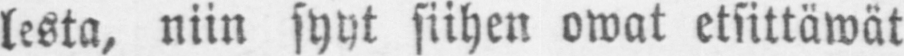lesta, niin syyt siihen owat etsittäwät
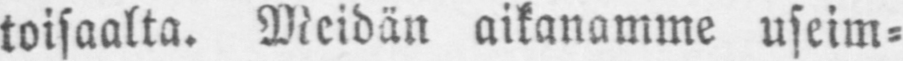toisaalta. Meidän aikanamme useim-
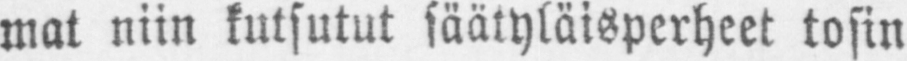mat niin kutsutut säätyläisperheet tosin
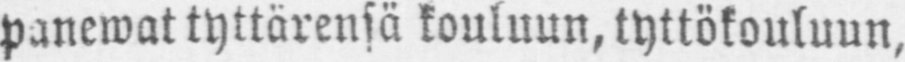panewat tyttärensä kouluun, tyttökouluun,
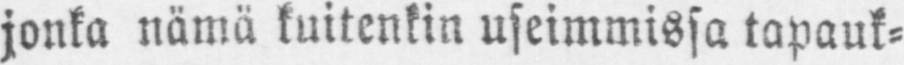jonka nämä kuitenkin useimmissa tapauk-
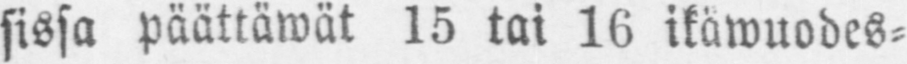sissa päättäwät 15 tai 16 ikäwuodes-
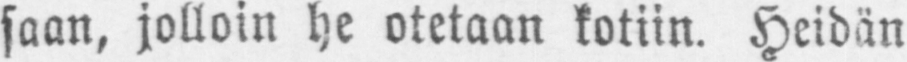saan, jolloin he otetaan kotiin. Heidän
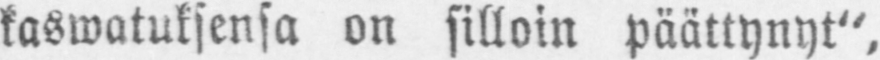˶kaswatuksensa on silloin päättynyt",
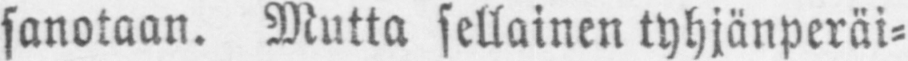sanotaan. Mutta sellainen tyhjänperäi-
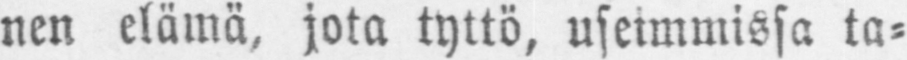nen elämä, jota tyttö, useimmissa ta-
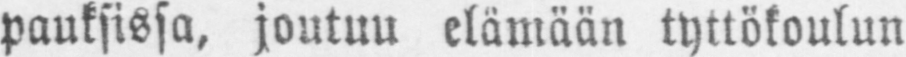pauksissa, joutuu elämään tyttökoulun
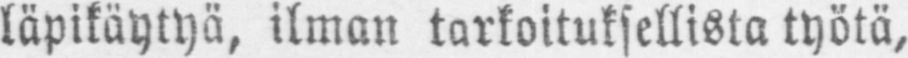läpikäytyä, ilman tarkoituksellista työtä,
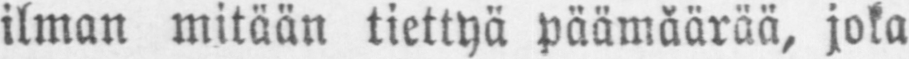ilman mitään tiettyä päämäärää, joka
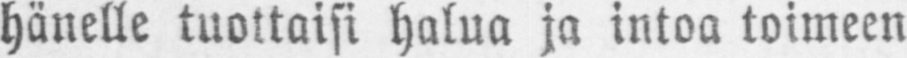hänelle tuottaisi halua ja intoa toimeen
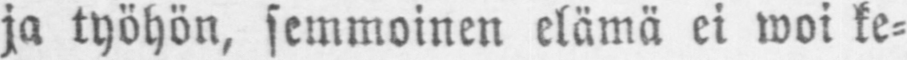ja työhön, semmoinen elämä ei woi ke-
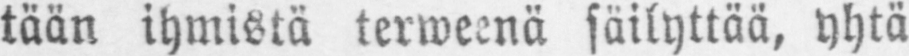tään ihmistä terweenä säilyttää, yhtä
